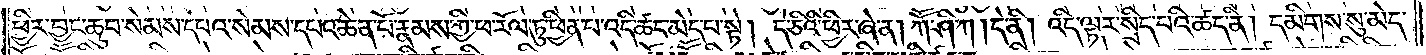ཕྱིར་བྱང་ཆུབ་སེམས་དཔའ་སེམས་དཔའ་ཆེན་པོ་རྣམས་ཀྱི་ཕ་རོལ་ཏུ་ཕྱིན་པ་འདི་ཚད་མེད་པ་སྟེ། དེ་ཅིའི་ཕྱིར་ཞེ་ན། ཀཽ་ཤི་ཀ །དེ་ནི། འདི་ལྟར་སྲིད་པའི་ཚད་ནི། དམིགས་སུ་མེད་
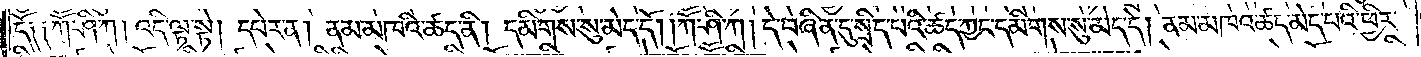དོ། །ཀཽ་ཤི་ཀ། འདི་ལྟ་སྟེ། དཔེར་ན། ནམ་མཁའི་ཚད་ནི། དམིགས་སུ་མེད་དོ། །ཀཽ་ཤི་ཀ། དེ་བཞིན་དུ་སྲིད་པའི་ཚད་ཀྱང་དམིགས་སུ་མེད་དེ། ནམ་མཁའ་ཚད་མེད་པའི་ཕྱིར་
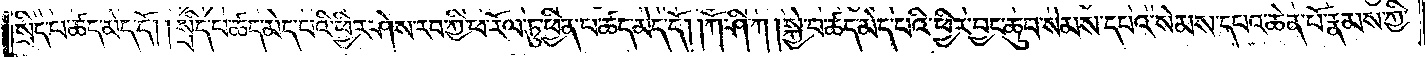སྲིད་པ་ཚད་མེད་དོ། །སྲིད་པ་ཚད་མེད་པའི་ཕྱིར་ཤེས་རབ་ཀྱི་ཕ་རོལ་ཏུ་ཕྱིན་པ་ཚད་མེད་དོ། །ཀཽ་ཤི་ཀ། སྐྱེ་བ་ཚད་མེད་པའི་ཕྱིར་བྱང་ཆུབ་སེམས་དཔའ་སེམས་དཔའ་ཆེན་པོ་རྣམས་ཀྱི་
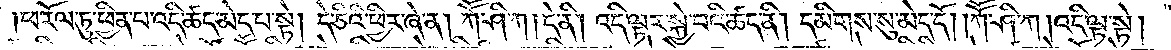ཕ་རོལ་ཏུ་ཕྱིན་པ་འདི་ཚད་མེད་པ་སྟེ། དེ་ཅིའི་ཕྱིར་ཞེ་ན། ཀཽ་ཤི་ཀ། དེ་ནི། འདི་ལྟར་སྐྱེ་བའི་ཚད་ནི། དམིགས་སུ་མེད་དོ། །ཀཽ་ཤི་ཀ། འདི་ལྟ་སྟེ།
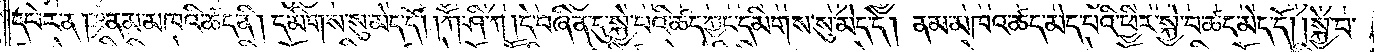དཔེར་ན། ནམ་མཁའི་ཚད་ནི། དམིགས་སུ་མེད་དོ། །ཀཽ་ཤི་ཀ །དེ་བཞིན་དུ་སྐྱེ་བའི་ཚད་ཀྱང་དམིགས་སུ་མེད་དེ། ནམ་མཁའ་ཚད་མེད་པའི་ཕྱིར་སྐྱེ་བ་ཚད་མེད་དོ། །སྐྱེ་བ་
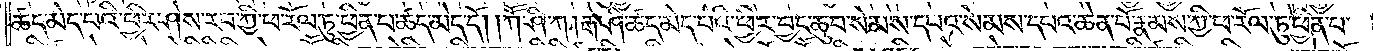ཚད་མེད་པའི་ཕྱིར་ཤེས་རབ་ཀྱི་ཕ་རོལ་ཏུ་ཕྱིན་པ་ཚད་མེད་དོ། །ཀཽ་ཤི་ཀ། རྒ་ཤི་ཚད་མེད་པའི་ཕྱིར་བྱང་ཆུབ་སེམས་དཔའ་སེམས་དཔའ་ཆེན་པོ་རྣམས་ཀྱི་ཕ་རོལ་ཏུ་ཕྱིན་པ་
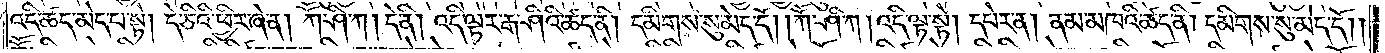འདི་ཚད་མེད་པ་སྟེ། དེ་ཅིའི་ཕྱིར་ཞེ་ན། ཀཽ་ཤི་ཀ། དེ་ནི། འདི་ལྟར་རྒ་ཤིའི་ཚད་ནི། དམིགས་སུ་མེད་དོ། །ཀཽ་ཤི་ཀ། འདི་ལྟ་སྟེ། དཔེར་ན། ནམ་མཁའི་ཚད་ནི། དམིགས་སུ་མེད་དོ། །
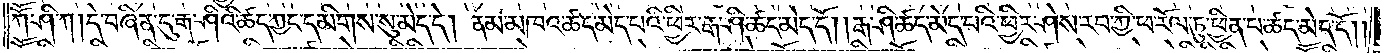ཀཽ་ཤི་ཀ། དེ་བཞིན་དུ་རྒ་ཤིའི་ཚད་ཀྱང་དམིགས་སུ་མེད་དེ། ནམ་མཁའ་ཚད་མེད་པའི་ཕྱིར་རྒ་ཤི་ཚད་མེད་དོ། །རྒ་ཤི་ཚད་མེད་པའི་ཕྱིར་ཤེས་རབ་ཀྱི་ཕ་རོལ་ཏུ་ཕྱིན་པ་ཚད་མེད་དོ༎
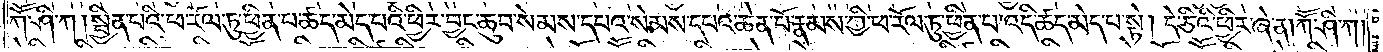ཀཽ་ཤི་ཀ། སྦྱིན་པའི་ཕ་རོལ་ཏུ་ཕྱིན་པ་ཚད་མེད་པའི་ཕྱིར་བྱང་ཆུབ་སེམས་དཔའ་སེམས་དཔའ་ཆེན་པོ་རྣམས་ཀྱི་ཕ་རོལ་ཏུ་ཕྱིན་པ་འདི་ཚད་མེད་པ་སྟེ། དེ་ཅིའི་ཕྱིར་ཞེ་ན། ཀཽ་ཤི་ཀ།
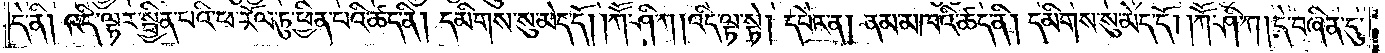དེ་ནི། འདི་ལྟར་སྦྱིན་པའི་ཕ་རོལ་ཏུ་ཕྱིན་པའི་ཚད་ནི། དམིགས་སུ་མེད་དོ། །ཀཽ་ཤི་ཀ། འདི་ལྟ་སྟེ། དཔེར་ན། ནམ་མཁའི་ཚད་ནི། དམིགས་སུ་མེད་དོ། །ཀཽ་ཤི་ཀ། དེ་བཞིན་དུ་
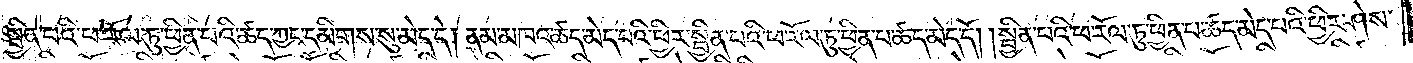སྦྱིན་པའི་ཕ་རོལ་ཏུ་ཕྱིན་པའི་ཚད་ཀྱང་དམིགས་སུ་མེད་དེ། ནམ་མཁའ་ཚད་མེད་པའི་ཕྱིར་སྦྱིན་པའི་ཕ་རོལ་ཏུ་ཕྱིན་པ་ཚད་མེད་དོ། །སྦྱིན་པའི་ཕ་རོལ་ཏུ་ཕྱིན་པ་ཚད་མེད་པའི་ཕྱིར་ཤེས་
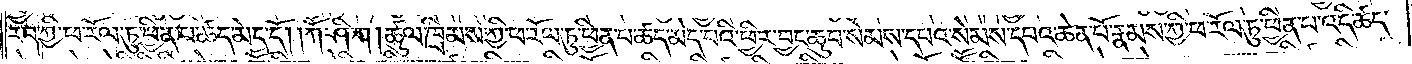རབ་ཀྱི་ཕ་རོལ་ཏུ་ཕྱིན་པ་ཚད་མེད་དོ། །ཀཽ་ཤི་ཀ། ཚུལ་ཁྲིམས་ཀྱི་ཕ་རོལ་ཏུ་ཕྱིན་པ་ཚད་མེད་པའི་ཕྱིར་བྱང་ཆུབ་སེམས་དཔའ་སེམས་དཔའ་ཆེན་པོ་རྣམས་ཀྱི་ཕ་རོལ་ཏུ་ཕྱིན་པ་འདི་ཚད་
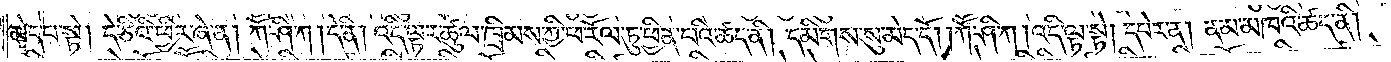མེད་པ་སྟེ། དེ་ཅིའི་ཕྱིར་ཞེ་ན། ཀཽ་ཤི་ཀ། དེ་ནི། འདི་ལྟར་ཚུལ་ཁྲིམས་ཀྱི་ཕ་རོལ་ཏུ་ཕྱིན་པའི་ཚད་ནི། དམིགས་སུ་མེད་དོ། །ཀཽ་ཤི་ཀ། འདི་ལྟ་སྟེ། དཔེར་ན། ནམ་མཁའི་ཚད་ནི།
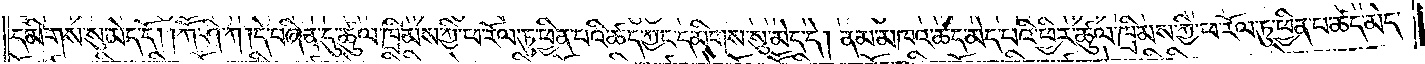དམིགས་སུ་མེད་དོ། །ཀཽ་ཤི་ཀ། དེ་བཞིན་དུ་ཚུལ་ཁྲིམས་ཀྱི་ཕ་རོལ་ཏུ་ཕྱིན་པའི་ཚད་ཀྱང་དམིགས་སུ་མེད་དེ། ནམ་མཁའ་ཚད་མེད་པའི་ཕྱིར་ཚུལ་ཁྲིམས་ཀྱི་ཕ་རོལ་ཏུ་ཕྱིན་པ་ཚད་མེད་
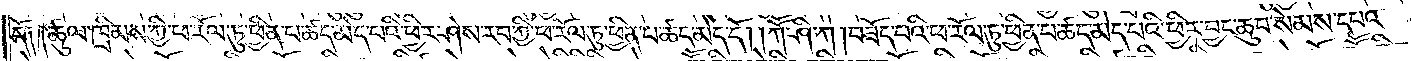དོ༑ ༑ཚུལ་ཁྲིམས་ཀྱི་ཕ་རོལ་ཏུ་ཕྱིན་པ་ཚད་མེད་པའི་ཕྱིར་ཤེས་རབ་ཀྱི་ཕ་རོལ་ཏུ་ཕྱིན་པ་ཚད་མེད་དོ། །ཀཽ་ཤི་ཀ། བཟོད་པའི་ཕ་རོལ་ཏུ་ཕྱིན་པ་ཚད་མེད་པའི་ཕྱིར་བྱང་ཆུབ་སེམས་དཔའ་
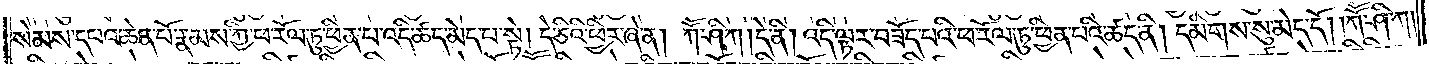སེམས་དཔའ་ཆེན་པོ་རྣམས་ཀྱི་ཕ་རོལ་ཏུ་ཕྱིན་པ་འདི་ཚད་མེད་པ་སྟེ། དེ་ཅིའི་ཕྱིར་ཞེ་ན། ཀཽ་ཤི་ཀ །དེ་ནི། འདི་ལྟར་བཟོད་པའི་ཕ་རོལ་ཏུ་ཕྱིན་པའི་ཚད་ནི། དམིགས་སུ་མེད་དོ། །ཀཽ་ཤི་ཀ།
